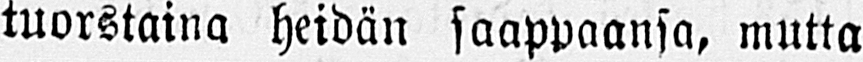tuorstaina heidän saappaansa, mutta
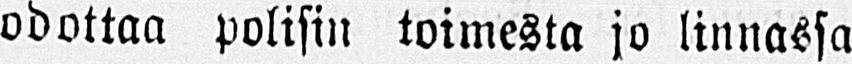odottaa polisin toimesta jo linnassa
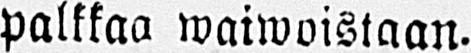palkkaa waiwoistaan.
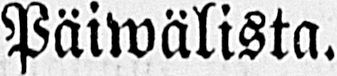Päiwälista.
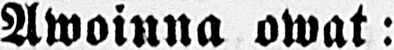Awoinna owat:
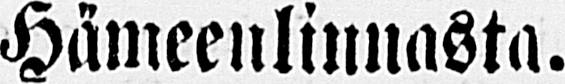Hämeenlinnasta.
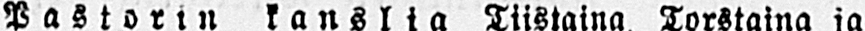Pastorin kanslia Tiistaina, Torstaina ja
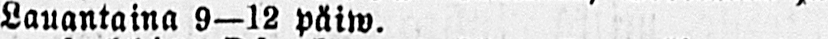Lauantaina 9—12 p äiw .
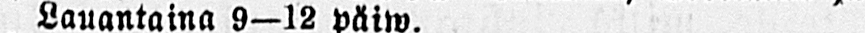Kansallis-Osakepankki 10—1 päiw.
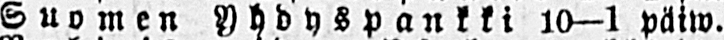Suomen Yhdyspankki 10-1 päiw.
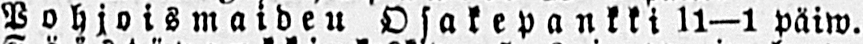Pohjoismaiden Osakepankki 1l—1 Päiw.
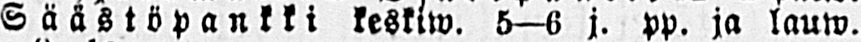Säästöpankki keskiw. 5—6 j. pp. ja lauw.
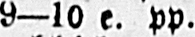9—l0 e. pp.
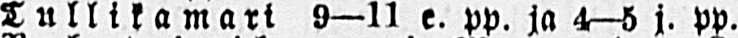Tullikamari 9—11 e. pp. ja 4—5 j. pp.
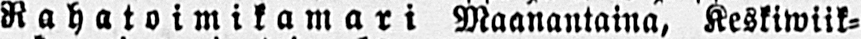Rahatoimikamari Maanantaina, Keskiwii-
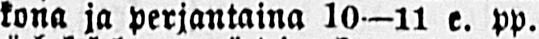kona ja perjantaina l0-11 e. pp.
